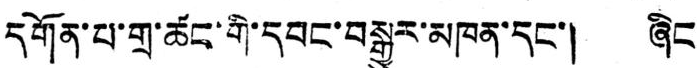དགོན་པ་གྲ་ཚང་གི་དབང་བསྒྱུར་མཁན་དང་། ཞིང
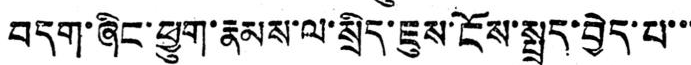བདག་ཞིང་ཕྱུག་རྣམས་ལ་སྲིད་ཇུས་ངོས་སྤྲད་བྱེད་པ་་་
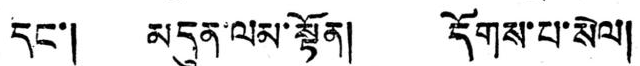དང་། མདུན་ལམ་སྟོན། དོགས་པ་སེལ།
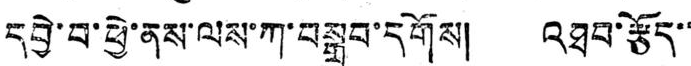དབྱེ་བ་ཕྱེ་ནས་ལས་ཀ་བསྒྲུབ་དགོས། འཐབ་རྩོད་་
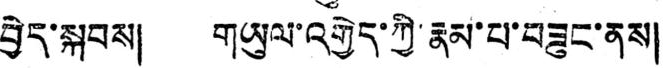བྱེད་སྐབས། གཡུལ་འགྱེད་ཀྱི་རྣམ་པ་བཟུང་ནས།
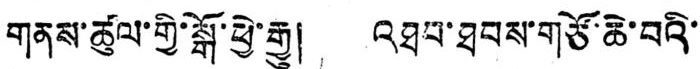གནས་ཚུལ་གྱི་སྒོ་ཕྱེ་རྒྱུ། འཐབ་ཐབས་གཙོ་ཆེ་བའི་
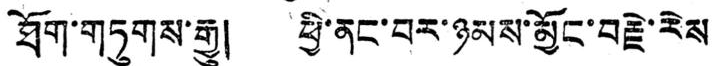ཐོག་གཏུགས་རྒྱུ། ཕྱི་ནང་བར་ཉམས་མྱོང་བརྗེ་རེས
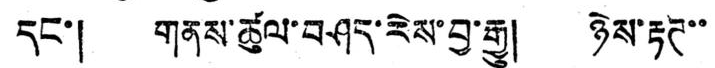དང་། གནས་ཚུལ་བཤད་རེས་བྱ་རྒྱུ། ཉེས་རྟཊ་་
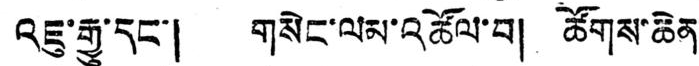འཇུ་རྒྱུ་དང་། གསེང་ལམ་འཚོལ་བ། ཚོགས་ཆེན་
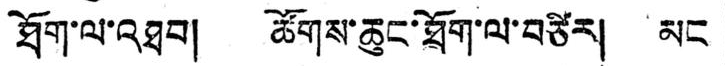ཐོག་ལ་འཐབ། ཚོགས་ཆུང་ཐོག་ལ་བཙིར། མང
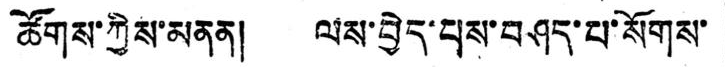ཚོགས་ཀྱིས་མནན། ལས་བྱེད་པས་བཤད་པ་སོགས་
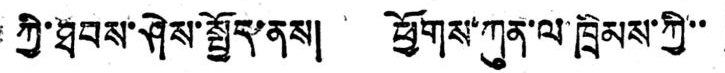ཀྱི་ཐབས་ཤེས་སྤྱོད་ནས། ཕྱོགས་ཀུན་ལ་ཁྲིམས་ཀྱི་་
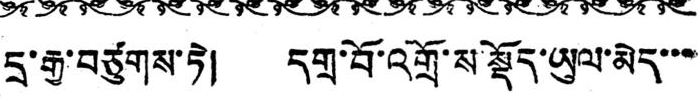དྲ་རྒྱ་བཙུགས་ཏེ། དགྲ་བོ་འགྲོ་ས་སྡོད་ཡུལ་མེད་་་
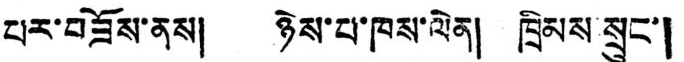པར་བཟོས་ནས། ཉེས་པ་ཁས་ལེན། ཁྲིམས་སྲུང་།
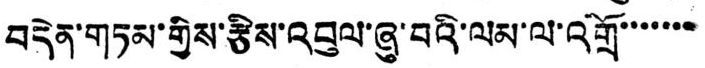བདེན་གཏམ་གྱིས་རྩིས་འབུལ་ཞུ་བའི་ལམ་ལ་འགྲོ་་་་་་་
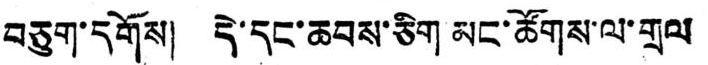བཅུག་དགོས། དེ་དང་ཆབས་ཅིག མང་ཚོགས་ལ་གྲལ
